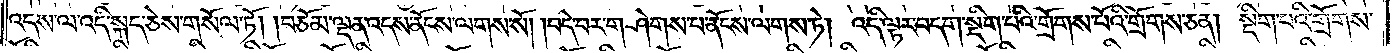འདས་ལ་འདི་སྐད་ཅེས་གསོལ་ཏོ། །བཅོམ་ལྡན་འདས་ནོངས་ལགས་སོ། །བདེ་བར་གཤེགས་པ་ནོངས་ལགས་ཏེ། འདི་ལྟར་བདག་སྡིག་པའི་གྲོགས་པོའི་གྲོགས་ཅན། སྡིག་པའི་གྲོགས་
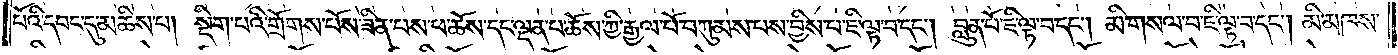པོའི་དབང་དུ་མཆིས་པ། སྡིག་པའི་གྲོགས་པོས་ཟིན་པས་ཕ་ཆོས་དང་ལྡན་པ་ཆོས་ཀྱི་རྒྱལ་པོ་བཀུམས་པས་བྱིས་པ་ཇི་ལྟ་བ་དང༌། བླུན་པོ་ཇི་ལྟ་བ་དང༌། མི་གསལ་བ་ཇི་ལྟ་བ་དང༌། མི་མཁས་
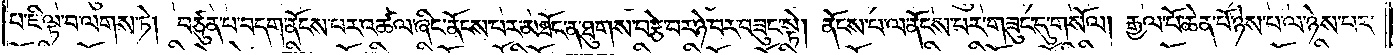པ་ཇི་ལྟ་བ་ལགས་ཏེ། བཙུན་པ་བདག་ནོངས་པར་འཚལ་ཞིང་ནོངས་པར་མཐོང་ན་ཐུགས་བརྩེ་བར་ཉེ་བར་བཟུང་སྟེ། ནོངས་པ་ལ་ནོངས་པར་གཟུང་དུ་གསོལ། རྒྱལ་པོ་ཆེན་པོ་ཉེས་པ་ལ་ཉེས་པར་
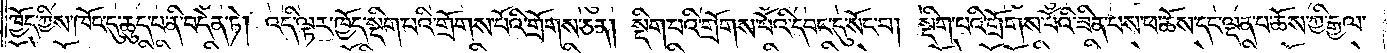ཁྱོད་ཀྱིས་ཁོང་དུ་ཆུད་པ་ནི་བདེན་ཏེ། འདི་ལྟར་ཁྱོད་སྡིག་པའི་གྲོགས་པོའི་གྲོགས་ཅན། སྡིག་པའི་གྲོགས་པོའི་དབང་དུ་སོང་བ། སྡིག་པའི་གྲོགས་པོའི་ཟིན་པས་ཕ་ཆོས་དང་ལྡན་པ་ཆོས་ཀྱི་རྒྱལ་
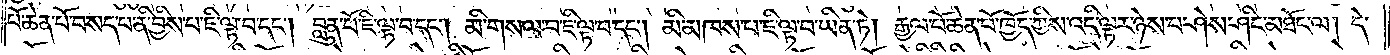པོ་ཆེན་པོ་བསད་པ་ནི་བྱིས་པ་ཇི་ལྟ་བ་དང༌། བླུན་པོ་ཇི་ལྟ་བ་དང༌། མི་གསལ་བ་ཇི་ལྟ་བ་དང༌། མི་མཁས་པ་ཇི་ལྟ་བ་ཡིན་ཏེ། རྒྱལ་པོ་ཆེན་པོ་ཁྱོད་ཀྱིས་འདི་ལྟར་ཉེས་པ་ཤེས་ཤིང་མཐོང་ལ། དེ་
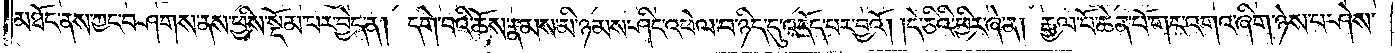མཐོང་ནས་ཀྱང་བཤགས་ནས་ཕྱིས་སྡོམ་པར་བྱེད་ན། དགེ་བའི་ཆོས་རྣམས་མི་ཉམས་ཤིང་འཕེལ་བ་ཉིད་དུ་འདོད་པར་བྱའོ། །དེ་ཅིའི་ཕྱིར་ཞེ་ན། རྒྱལ་པོ་ཆེན་པོ་གང་འགའ་ཞིག་ཉེས་པ་ཤེས་
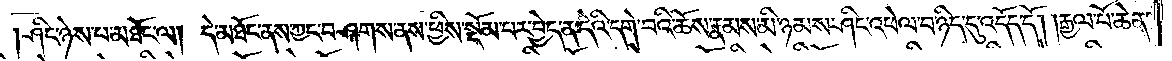།ཤིང་ཉེས་པ་མཐོང་ལ། དེ་མཐོང་ནས་ཀྱང་བཤགས་ནས་ཕྱིས་སྡོམ་པར་བྱེད་ན་དེའི་དགེ་བའི་ཆོས་རྣམས་མི་ཉམས་ཤིང་འཕེལ་བ་ཉིད་དུ་འདོད་དོ། །རྒྱལ་པོ་ཆེན་
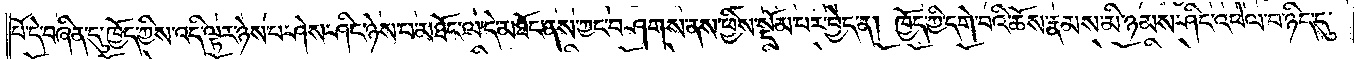པོ་དེ་བཞིན་དུ་ཁྱོད་ཀྱིས་འདི་ལྟར་ཉེས་པ་ཤེས་ཤིང་ཉེས་པ་མཐོང་ལ་དེ་མཐོང་ནས་ཀྱང་བཤགས་ནས་ཕྱིས་སྡོམ་པར་བྱེད་ན། ཁྱོད་ཀྱི་དགེ་བའི་ཆོས་རྣམས་མི་ཉམས་ཤིང་འཕེལ་བ་ཉིད་དུ་
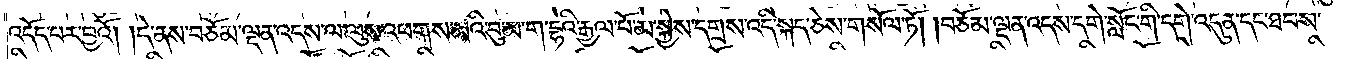འདོད་པར་བྱའོ། །དེ་ནས་བཅོམ་ལྡན་འདས་ལ་ལུས་འཕགས་མའི་བུ་མ་ག་དྷའི་རྒྱལ་པོ་མ་སྐྱེས་དགྲས་འདི་སྐད་ཅེས་གསོལ་ཏོ། །བཅོམ་ལྡན་འདས་དགེ་སློང་གི་དགེ་འདུན་དང་ཐབས་
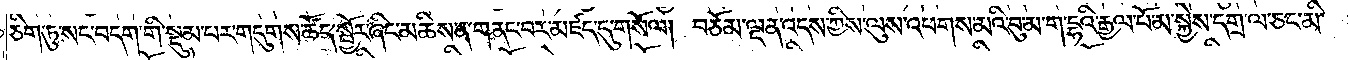ཅིག་ཏུ་སང་བདག་གི་སྡུམ་པར་གདུགས་ཚོད་སྦྱོར་ཞིང་མཆིས་ན་གནང་བར་མཛད་དུ་གསོལ། བཅོམ་ལྡན་འདས་ཀྱིས་ལུས་འཕགས་མའི་བུ་མ་ག་དྷའི་རྒྱལ་པོ་མ་སྐྱེས་དགྲ་ལ་ཅང་མི་
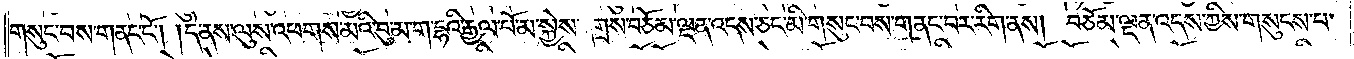གསུང་བས་གནང་ངོ༌། །དེ་ནས་ལུས་འཕགས་མའི་བུ་མ་ག་དྷའི་རྒྱལ་པོ་མ་སྐྱེས་དགྲས་བཅོམ་ལྡན་འདས་ཅང་མི་གསུང་བས་གནང་བར་རིག་ནས། བཅོམ་ལྡན་འདས་ཀྱིས་གསུངས་པ་
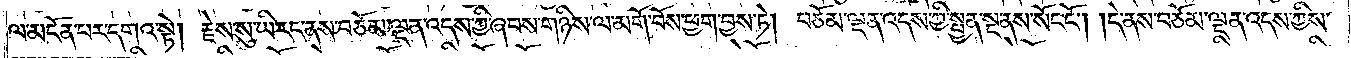ལ་མངོན་པར་དགའ་སྟེ། རྗེས་སུ་ཡི་རང་ནས་བཅོམ་ལྡན་འདས་ཀྱི་ཞབས་གཉིས་ལ་མགོ་བོས་ཕྱག་བྱས་ཏེ། བཅོམ་ལྡན་འདས་ཀྱི་སྤྱན་སྔ་ནས་སོང་ངོ༌། །དེ་ནས་བཅོམ་ལྡན་འདས་ཀྱིས་
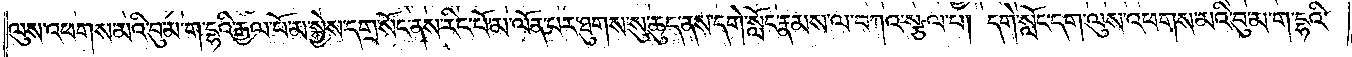ལུས་འཕགས་མའི་བུ་མ་ག་དྷའི་རྒྱལ་པོ་མ་སྐྱེས་དགྲ་སོང་ནས་རིང་པོ་མ་ལོན་པར་ཐུགས་སུ་ཆུད་ནས་དགེ་སློང་རྣམས་ལ་བཀའ་སྩལ་པ། དགེ་སློང་དག་ལུས་འཕགས་མའི་བུ་མ་ག་དྷའི་
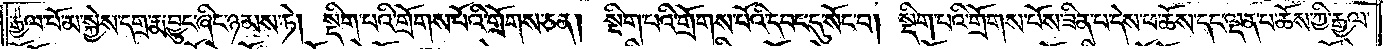རྒྱལ་པོ་མ་སྐྱེས་དགྲ་རྨ་བྱུང་ཞིང་ཉམས་ཏེ། སྡིག་པའི་གྲོགས་པོའི་གྲོགས་ཅན། སྡིག་པའི་གྲོགས་པོའི་དབང་དུ་སོང་བ། སྡིག་པའི་གྲོགས་པོས་ཟིན་པ་དེས་ཕ་ཆོས་དང་ལྡན་པ་ཆོས་ཀྱི་རྒྱལ་
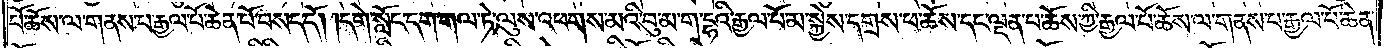པོ་ཆོས་ལ་གནས་པ་རྒྱལ་པོ་ཆེན་པོ་བསད་དོ། །དགེ་སློང་དག་གལ་ཏེ་ལུས་འཕགས་མའི་བུ་མ་ག་དྷའི་རྒྱལ་པོ་མ་སྐྱེས་དགྲས་ཕ་ཆོས་དང་ལྡན་པ་ཆོས་ཀྱི་རྒྱལ་པོ་ཆོས་ལ་གནས་པ་རྒྱལ་པོ་ཆེན་
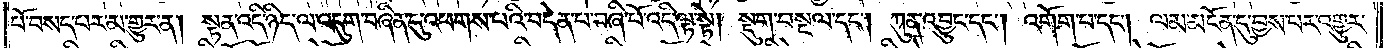པོ་བསད་པར་མ་གྱུར་ན། སྟན་འདི་ཉིད་ལ་འདུག་བཞིན་དུ་འཕགས་པའི་བདེན་པ་བཞི་པོ་འདི་ལྟ་སྟེ། སྡུག་བསྔལ་དང༌། ཀུན་འབྱུང་དང༌། འགོག་པ་དང༌། ལམ་མངོན་དུ་བྱས་པར་འགྱུར་
